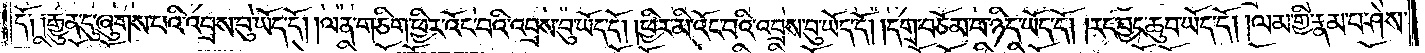དོ༑ ༑རྒྱུན་དུ་ཞུགས་པའི་འབྲས་བུ་ཡོད་དོ། །ལན་གཅིག་ཕྱིར་འོང་བའི་འབྲས་བུ་ཡོད་དོ། །ཕྱིར་མི་འོང་བའི་འབྲས་བུ་ཡོད་དོ། །དགྲ་བཅོམ་པ་ཉིད་ཡོད་དོ། །རང་བྱང་ཆུབ་ཡོད་དོ། །ལམ་གྱི་རྣམ་པ་ཤེས་
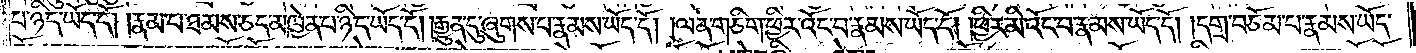པ་ཉིད་ཡོད་དོ། །རྣམ་པ་ཐམས་ཅད་མཁྱེན་པ་ཉིད་ཡོད་དོ། །རྒྱུན་དུ་ཞུགས་པ་རྣམས་ཡོད་དོ། །ལན་གཅིག་ཕྱིར་འོང་བ་རྣམས་ཡོད་དོ། །ཕྱིར་མི་འོང་བ་རྣམས་ཡོད་དོ། །དགྲ་བཅོམ་པ་རྣམས་ཡོད་
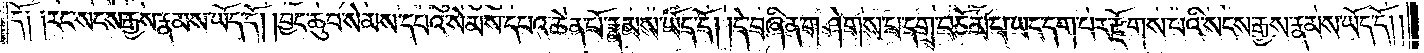དོ༑ ༑རང་སངས་རྒྱས་རྣམས་ཡོད་དོ། །བྱང་ཆུབ་སེམས་དཔའ་སེམས་དཔའ་ཆེན་པོ་རྣམས་ཡོད་དོ། །དེ་བཞིན་གཤེགས་པ་དགྲ་བཅོམ་པ་ཡང་དག་པར་རྫོགས་པའི་སངས་རྒྱས་རྣམས་ཡོད་དོ། །
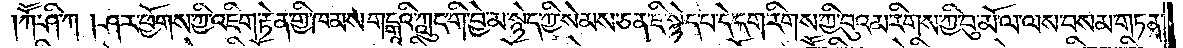ཀཽ་ཤི་ཀ །ཤར་ཕྱོགས་ཀྱི་འཇིག་རྟེན་གྱི་ཁམས་གངྒཱའི་ཀླུང་གི་བྱེ་མ་སྙེད་ཀྱི་སེམས་ཅན་ཇི་སྙེད་པ་དེ་དག་རིགས་ཀྱི་བུའམ་རིགས་ཀྱི་བུ་མོ་ལ་ལས་བསམ་གཏན་
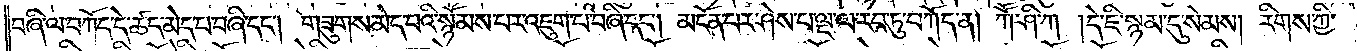བཞི་ལ་བཀོད་དེ་ཚད་མེད་པ་བཞི་དང༌། གཟུགས་མེད་པའི་སྙོམས་པར་འཇུག་པ་བཞི་དང༌། མངོན་པར་ཤེས་པ་ལྔ་ལ་རབ་ཏུ་བཀོད་ན། ཀཽ་ཤི་ཀ །དེ་ཇི་སྙམ་དུ་སེམས། རིགས་ཀྱི་
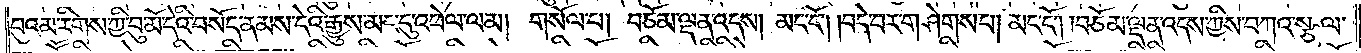བུའམ་རིགས་ཀྱི་བུ་མོ་དེའི་བསོད་ནམས་དེའི་རྒྱུས་མང་དུ་འཕེལ་ལམ། གསོལ་པ། བཅོམ་ལྡན་འདས། མང་ངོ༌། །བདེ་བར་གཤེགས་པ། མང་ངོ༌། །བཅོམ་ལྡན་འདས་ཀྱིས་བཀའ་སྩལ་
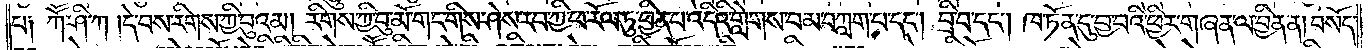པ༑ ཀཽ་ཤི་ཀ །དེ་བས་རིགས་ཀྱི་བུའམ། རིགས་ཀྱི་བུ་མོ་གང་གིས་ཤེས་རབ་ཀྱི་ཕ་རོལ་ཏུ་ཕྱིན་པ་འདིའི་གླེགས་བམ་བཀླག་པ་དང༌། བྲི་བ་དང༌། ཁ་ཏོན་དུ་བྱ་བའི་ཕྱིར་གཞན་ལ་བྱིན་ན། བསོད་
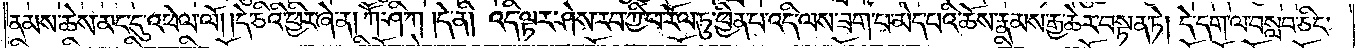ནམས་ཆེས་མང་དུ་འཕེལ་ལོ། །དེ་ཅིའི་ཕྱིར་ཞེ་ན། ཀཽ་ཤི་ཀ །དེ་ནི། འདི་ལྟར་ཤེས་རབ་ཀྱི་ཕ་རོལ་ཏུ་ཕྱིན་པ་འདི་ལས་ཟག་པ་མེད་པའི་ཆོས་རྣམས་རྒྱ་ཆེར་བསྟན་ཏེ། དེ་དག་ལ་བསླབ་ཅིང་
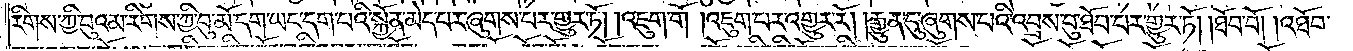རིགས་ཀྱི་བུའམ་རིགས་ཀྱི་བུ་མོ་དག་ཡང་དག་པའི་སྐྱོན་མེད་པར་ཞུགས་པར་གྱུར་ཏོ། །འཇུག་གོ །འཇུག་པར་འགྱུར་རོ། །རྒྱུན་དུ་ཞུགས་པའི་འབྲས་བུ་ཐོབ་པར་གྱུར་ཏོ། །ཐོབ་བོ། འཐོབ་
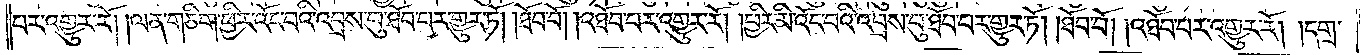པར་འགྱུར་རོ། །ལན་གཅིག་ཕྱིར་འོང་བའི་འབྲས་བུ་ཐོབ་པར་གྱུར་ཏོ། །ཐོབ་བོ། །འཐོབ་པར་འགྱུར་རོ། །ཕྱིར་མི་འོང་བའི་འབྲས་བུ་ཐོབ་པར་གྱུར་ཏོ། །ཐོབ་བོ། འཐོབ་པར་འགྱུར་རོ། །དགྲ་
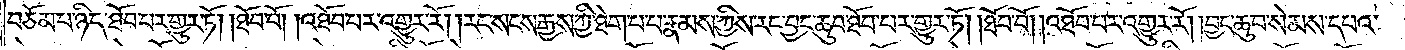བཅོམ་པ་ཉིད་ཐོབ་པར་གྱུར་ཏོ། །ཐོབ་བོ། འཐོབ་པར་འགྱུར་རོ། །རང་སངས་རྒྱས་ཀྱི་ཐེག་པ་པ་རྣམས་ཀྱིས་རང་བྱང་ཆུབ་ཐོབ་པར་གྱུར་ཏོ། །ཐོབ་བོ། འཐོབ་པར་འགྱུར་རོ། །བྱང་ཆུབ་སེམས་དཔའ་
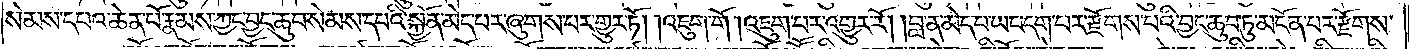སེམས་དཔའ་ཆེན་པོ་རྣམས་ཀྱང་བྱང་ཆུབ་སེམས་དཔའི་སྐྱོན་མེད་པར་ཞུགས་པར་གྱུར་ཏོ། །འཇུག་གོ། འཇུག་པར་འགྱུར་རོ། །བླ་ན་མེད་པ་ཡང་དག་པར་རྫོགས་པའི་བྱང་ཆུབ་ཏུ་མངོན་པར་རྫོགས་
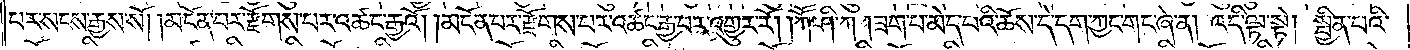པར་སངས་རྒྱས་སོ། །མངོན་པར་རྫོགས་པར་འཚང་རྒྱའོ། །མངོན་པར་རྫོགས་པར་འཚང་རྒྱ་བར་འགྱུར་རོ། །ཀཽ་ཤི་ཀ །ཟག་པ་མེད་པའི་ཆོས་དེ་དག་ཀྱང་གང་ཞེ་ན། འདི་ལྟ་སྟེ། སྦྱིན་པའི་
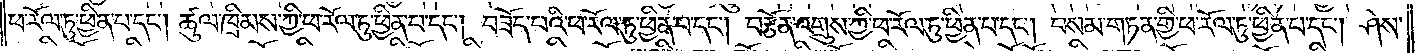ཕ་རོལ་ཏུ་ཕྱིན་པ་དང༌། ཚུལ་ཁྲིམས་ཀྱི་ཕ་རོལ་ཏུ་ཕྱིན་པ་དང༌། བཟོད་པའི་ཕ་རོལ་ཏུ་ཕྱིན་པ་དང༌། བརྩོན་འགྲུས་ཀྱི་ཕ་རོལ་ཏུ་ཕྱིན་པ་དང༌། བསམ་གཏན་གྱི་ཕ་རོལ་ཏུ་ཕྱིན་པ་དང༌། ཤེས་
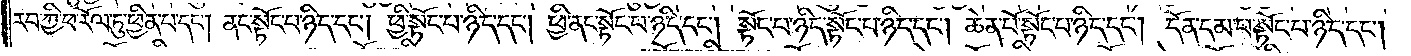རབ་ཀྱི་ཕ་རོལ་ཏུ་ཕྱིན་པ་དང༌། ནང་སྟོང་པ་ཉིད་དང༌། ཕྱི་སྟོང་པ་ཉིད་དང༌། ཕྱི་ནང་སྟོང་པ་ཉིད་དང༌། སྟོང་པ་ཉིད་སྟོང་པ་ཉིད་དང༌། ཆེན་པོ་སྟོང་པ་ཉིད་དང༌། དོན་དམ་པ་སྟོང་པ་ཉིད་དང༌།
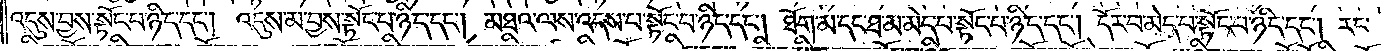འདུས་བྱས་སྟོང་པ་ཉིད་དང༌། འདུས་མ་བྱས་སྟོང་པ་ཉིད་དང༌། མཐའ་ལས་འདས་པ་སྟོང་པ་ཉིད་དང༌། ཐོག་མ་དང་ཐ་མ་མེད་པ་སྟོང་པ་ཉིད་དང༌། དོར་བ་མེད་པ་སྟོང་པ་ཉིད་དང༌། རང་
